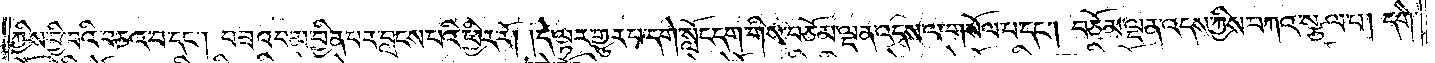ཀྱིས་བྱི་བའི་བཅའ་བ་དང༌། བཟའ་བ་མ་བྱིན་པར་བླངས་པའི་ཕྱིར་རོ། །དེ་ལྟར་གྱུར་པ་དགེ་སློང་དག་གིས་བཅོམ་ལྡན་འདས་ལ་གསོལ་པ་དང༌། བཅོམ་ལྡན་འདས་ཀྱིས་བཀའ་སྩལ་པ། དགེ་
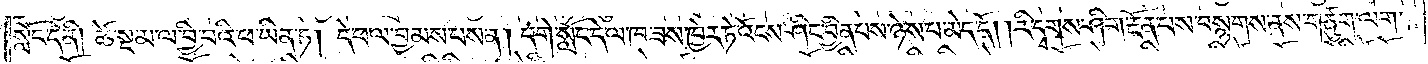སློང་དེ་ནི། ཚེ་སྔ་མ་ལ་བྱི་བའི་ཕ་ཡིན་ཏེ། དེ་ཕ་ལ་བྱམས་པས་ན། དགེ་སློང་དེ་ལ་ཁ་ཟས་ཁྱེར་ཏེ་འོངས་ཤིང་བྱིན་པས་ཉེས་པ་མེད་དོ། །རི་དྭགས་ཤིག་རྔོན་པས་བསྙགས་ནས་གཙུག་ལག་
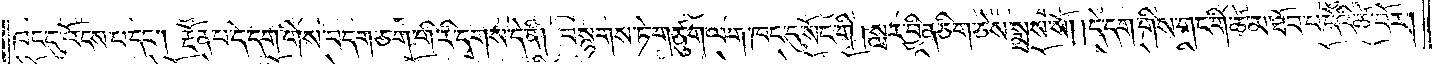ཁང་དུ་འོངས་པ་དང༌། རྔོན་པ་དེ་དག་གིས་བདག་ཅག་གི་རི་དྭགས་དེ་ནི། བསྙགས་ཏེ་གཙུག་ལག་ཁང་དུ་སོང་གི །སླར་བྱིན་ཅིག་ཅེས་སྨྲས་སོ། །དེ་དག་གིས་གང་གི་ཚེ་མ་ཐོབ་པ་དེའི་ཚེ་བོར།
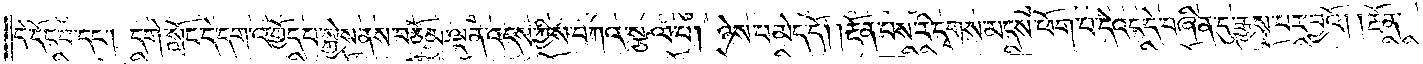དེ་དོང་བ་དང༌། དགེ་སློང་དེ་དག་འགྱོད་པ་སྐྱེས་ནས་བཅོམ་ལྡན་འདས་ཀྱིས་བཀའ་སྩལ་པ། ཉེས་པ་མེད་དོ། །རྔོན་པས་རི་དྭགས་མདས་ཕོག་པ་དེའང་དེ་བཞིན་དུ་རྒྱས་པར་བྱའོ། །རྔོན་
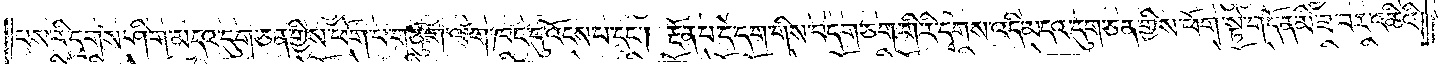པས་རི་དྭགས་ཤིག་མདའ་དུག་ཅན་གྱིས་ཕོག་པ་གཙུག་ལག་ཁང་དུ་འོངས་པ་དང༌། རྔོན་པ་དེ་དག་གིས་བདག་ཅག་གི་རི་དྭགས་འདི་མདའ་དུག་ཅན་གྱིས་ཕོག་སྟེ་གདོན་མི་ཟ་བར་འཆིའི།
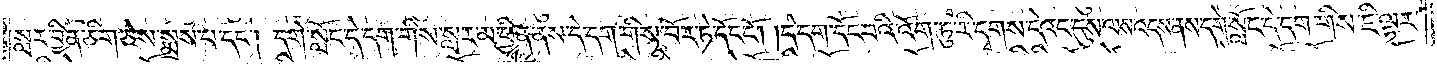སླར་བྱིན་ཅིག་ཅེས་སྨྲས་པ་དང༌། དགེ་སློང་དེ་དག་གིས་སླར་མ་ཕྱིན་ནས་དེ་དག་གིས་བོར་ཏེ་དོང་ངོ༌། །དེ་དག་དོང་བའི་འོག་ཏུ་རི་དྭགས་དེའང་དུས་ལས་འདས་ནས་དགེ་སློང་དེ་དག་གིས་ཇི་ལྟར་
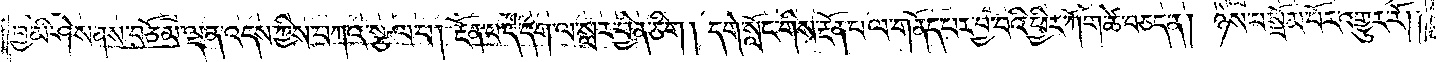བྱ་མི་ཤེས་ནས་བཅོམ་ལྡན་འདས་ཀྱིས་བཀའ་སྩལ་པ། རྔོན་པ་དེ་དག་ལ་སླར་བྱིན་ཅིག །དགེ་སློང་གིས་རྔོན་པ་ལ་གནོད་པར་བྱ་བའི་ཕྱིར་ཀོག་ཚེ་བཅད་ན། ཉེས་པ་སྦོམ་པོར་འགྱུར་རོ། །
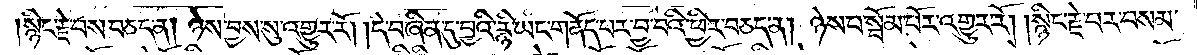སྙིང་རྗེ་བས་བཅད་ན། ཉེས་བྱས་སུ་འགྱུར་རོ། །དེ་བཞིན་དུ་བྱའི་རྙི་ཡང་གནོད་པར་བྱ་བའི་ཕྱིར་བཅད་ན། ཉེས་པ་སྦོམ་པོར་འགྱུར་རོ། །སྙིང་རྗེ་བར་བསམ་
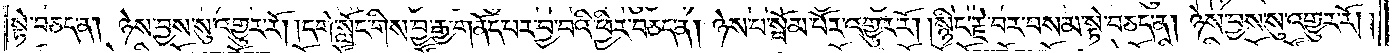སྟེ་བཅད་ན། ཉེས་བྱས་སུ་འགྱུར་རོ། །དགེ་སློང་གིས་བྱ་རྒྱ་གནོད་པར་བྱ་བའི་ཕྱིར་བཅད་ན། ཉེས་པ་སྦོམ་པོར་འགྱུར་རོ། །སྙིང་རྗེ་བར་བསམ་སྟེ་བཅད་ན། ཉེས་བྱས་སུ་འགྱུར་རོ། །
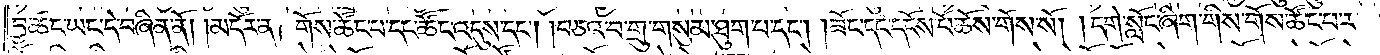བྱ་ཚང་ཡང་དེ་བཞིན་ནོ། །མདོར་ན། གོས་ཚོང་པ་དང་ཚོང་འདུས་དང༌། །བཅའ་བ་གྲུ་གསུམ་ཐུག་པ་དང༌། །ཟོང་དང་དངོས་པོ་ཆོས་གོས་སོ། །དགེ་སློང་ཞིག་གིས་གོས་ཚོང་པར་
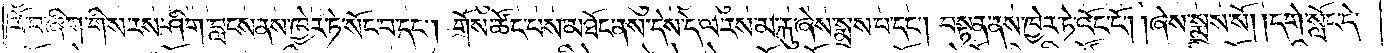རོ་བ་ཞིག་གིས་རས་ཤིག་བླངས་ནས་ཁྱེར་ཏེ་སོང་བ་དང༌། གོས་ཚོང་པས་མཐོང་ནས་དེས་དེ་ལ་རས་མ་རྐུ་ཞེས་སྨྲས་པ་དང༌། བསྟན་ནས་ཁྱེར་ཏེ་འོང་ངོ༌། །ཞེས་སྨྲས་སོ། །དགེ་སློང་དེ་
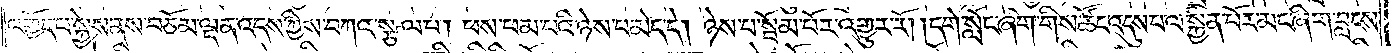འགྱོད་པ་སྐྱེས་ནས་བཅོམ་ལྡན་འདས་ཀྱིས་བཀའ་སྩལ་པ། ཕས་ཕམ་པའི་ཉེས་པ་མེད་དེ། ཉེས་པ་སྦོམ་པོར་འགྱུར་རོ། །དགེ་སློང་ཞིག་གིས་ཚོང་འདུས་པ་ལ་སྐྱིན་པོར་མང་ཞིག་བླངས་
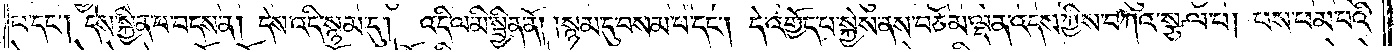པ་དང༌། དེས་སྐྱིན་པ་བདས་ན། དེས་འདི་སྙམ་དུ། འདི་ལ་མི་སྦྱིན་ནོ། །སྙམ་དུ་བསམ་པ་དང༌། དེ་འགྱོད་པ་སྐྱེས་ནས་བཅོམ་ལྡན་འདས་ཀྱིས་བཀའ་སྩལ་པ། ཕས་ཕམ་པའི་
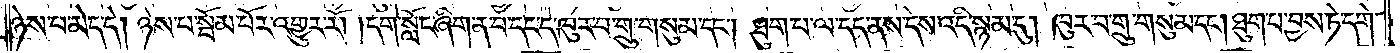ཉེས་པ་མེད་དེ། ཉེས་པ་སྦོམ་པོར་འགྱུར་རོ། །དགེ་སློང་ཞིག་ན་བ་དང་དེ་ཁུར་བ་གྲུ་གསུམ་དང༌། ཐུག་པ་ལ་དད་ནས་དེས་འདི་སྙམ་དུ། ཁུར་བ་གྲུ་གསུམ་དང༌། ཐུག་པ་བྱས་ཏེ་དགེ་
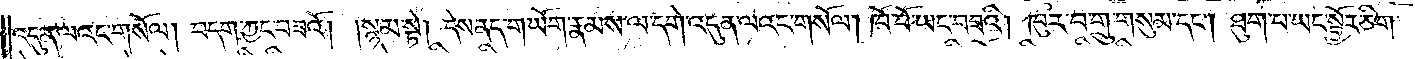འདུན་ལའང་གསོལ། བདག་ཀྱང་བཟའོ། །སྙམ་སྟེ། དེས་ནད་གཡོག་རྣམས་ལ་དགེ་འདུན་ལའང་གསོལ། ཁོ་བོ་ཡང་བཟའི། ཁུར་བ་གྲུ་གསུམ་དང༌། ཐུག་པ་ཡང་སྦྱོར་ཅིག་
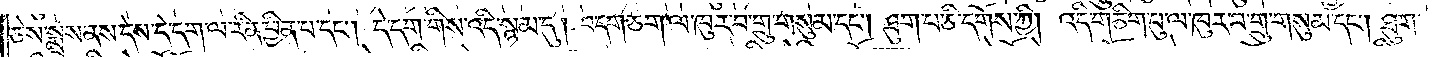ཅེས་སྨྲས་ནས་དེས་དེ་དག་ལ་རིན་བྱིན་པ་དང༌། དེ་དག་གིས་འདི་སྙམ་དུ། བདག་ཅག་ལ་ཁུར་བ་གྲུ་གསུམ་དང༌། ཐུག་པ་ཅི་དགོས་ཀྱི། འདི་གཅིག་པུ་ལ་ཁུར་བ་གྲུ་གསུམ་དང༌། ཐུག་
